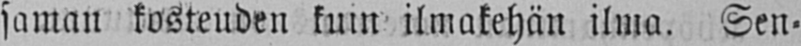saman kosteuden kuin ilmakehän ilma. Sen-
